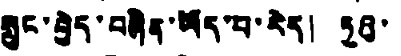སྲུང་བྱེད་བཞིན་ཡོད་པ་རེད། ཏུའུ་
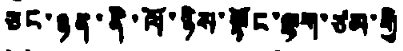ཅང་ཉན་ནི་ལོ་ཉིས་སྟོང་ལྷག་ཙམ་གྱི
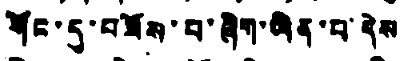གོང་དུ་བཟོས་པ་ཞིག་ཡིན་པ་དེས
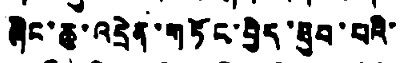ཞིང་ཆུ་འདྲེན་གཏོང་བྱེད་ཐུབ་པའི་
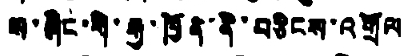ས་ཞིང་གི་རྒྱ་ཁྱོན་ནི་བཅིངས་འགྲོལ
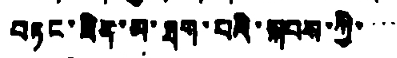བཏང་ཟིན་མ་ཐག་པའི་སྐབས་ཀྱི་་་་
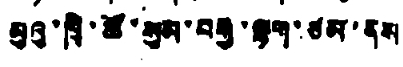མུའུ་ཁྲི་ཚོ་སུམ་བརྒྱ་ལྷག་ཙམ་ནས
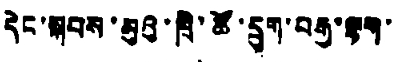དེང་སྐབས་མུའུ་ཁྲི་ཚོ་དྲུག་བརྒྱ་ལྷག་
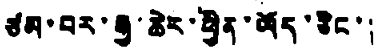ཙམ་བར་རྒྱ་ཆེར་ཕྱིན་ཡོད་ཅིང་།
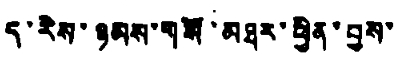ད་རེས་ཉམས་གསོ་མཐར་ཕྱིན་བྱས་
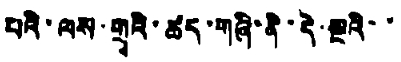པའི་ལས་གྲྭའི་ཚད་གཞི་ནི་དེ་སྔའི་་
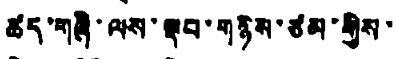ཚད་གཞི་ལས་སྡབ་གཉིས་ཙམ་གྱིས་
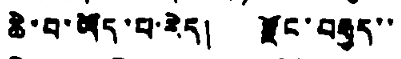ཆེ་བ་ཡོད་པ་རེད། རྫོང་བརྒྱད་་
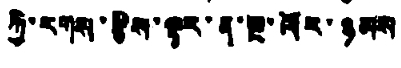ཀྱི་རགས་རྩིས་སྟར་ན་སྔ་ལོར་ཉམས
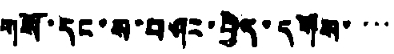གསོ་དང་ས་བཤང་བྱེད་དགོས་་་་
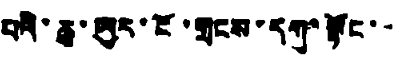པའི་ཆུ་ཡུར་ངོ་གྲངས་དགུ་སྟོང་་
